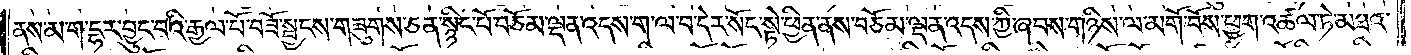ནས་མ་ག་དྷར་བྱུང་བའི་རྒྱལ་པོ་བཟོ་སྦྱངས་གཟུགས་ཅན་སྙིང་པོ་བཅོམ་ལྡན་འདས་ག་ལ་བ་དེར་སོང་སྟེ་ཕྱིན་ནས་བཅོམ་ལྡན་འདས་ཀྱི་ཞབས་གཉིས་ལ་མགོ་བོས་ཕྱག་འཚལ་ཏེ་མཐའ་
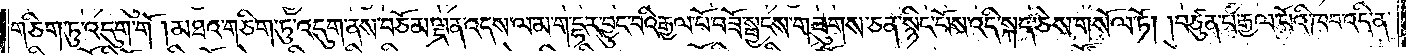གཅིག་ཏུ་འདུག་གོ །མཐའ་གཅིག་ཏུ་འདུག་ནས་བཅོམ་ལྡན་འདས་ལ་མ་ག་དྷར་བྱུང་བའི་རྒྱལ་པོ་བཟོ་སྦྱངས་གཟུགས་ཅན་སྙིང་པོས་འདི་སྐད་ཅེས་གསོལ་ཏོ། །བཙུན་པ་རྒྱལ་པོའི་ཁབ་འདི་ན་
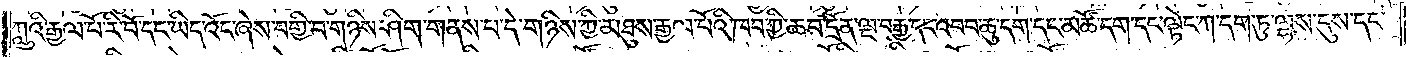ཀླུའི་རྒྱལ་པོ་རི་བོ་དང་ཡིད་འོང་ཞེས་བགྱི་བ་གཉིས་ཤིག་གནས་པ་དེ་གཉིས་ཀྱི་མཐུས་རྒྱལ་པོའི་ཁབ་ཀྱི་ཆབ་དྲོན་ལྔ་བརྒྱ་དང་འབབ་ཆུ་དག་དང་མཚོ་དག་དང་ལྟེང་ཀ་དག་ཏུ་ལྷས་དུས་དང་
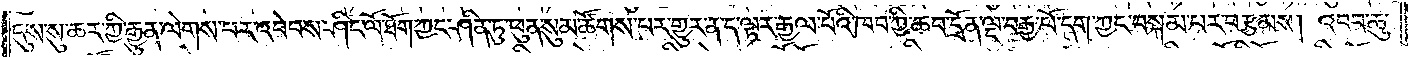དུས་སུ་ཆར་ཀྱི་རྒྱུན་ལེགས་པར་འབེབས་ཤིང་ལོ་ཐོག་ཀྱང་ཤིན་ཏུ་ཕུན་སུམ་ཚོགས་པར་གྱུར་ན་ད་ལྟར་རྒྱལ་པོའི་ཁབ་ཀྱི་ཆབ་དྲོན་ལྔ་བརྒྱ་པོ་དག་ཀྱང་བསྐམ་པར་བརྩམས། འབབ་ཆུ་
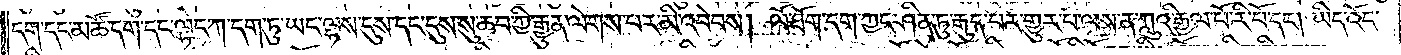དག་དང་མཚོ་དག་དང་ལྟེང་ཀ་དག་ཏུ་ཡང་ལྷས་དུས་དང་དུས་སུ་ཆབ་ཀྱི་རྒྱུན་ལེགས་པར་མི་འབེབས། ལོ་ཐོག་དག་ཀྱང་ཤིན་ཏུ་རྒུད་པར་གྱུར་པ་ལས་ན་ཀླུའི་རྒྱལ་པོ་རི་བོ་དང༌། ཡིད་འོང་
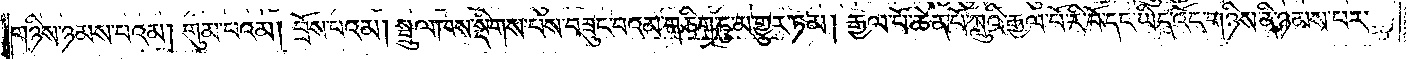གཉིས་ཉམས་པའམ། གུམ་པའམ། བྲོས་པའམ། སྦྲུལ་ཁས་སྡིགས་པས་བཟུང་བའམ་གཅིག་ཏུ་མ་གྱུར་ཏམ། རྒྱལ་པོ་ཆེན་པོ་ཀླུའི་རྒྱལ་པོ་རི་བོ་དང་ཡིད་འོང་གཉིས་ནི་ཉམས་པར་
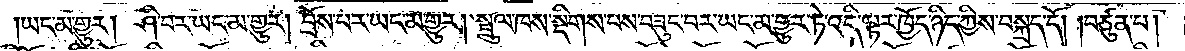ཡང་མ་གྱུར། ཤི་བར་ཡང་མ་གྱུར། བྲོས་པར་ཡང་མ་གྱུར། སྦྲུལ་ཁས་སྡིགས་པས་བཟུང་བར་ཡང་མ་གྱུར་ཏེ་འདི་ལྟར་ཁྱོད་ཉིད་ཀྱིས་བསྐྲད་དོ། །བཙུན་པ།
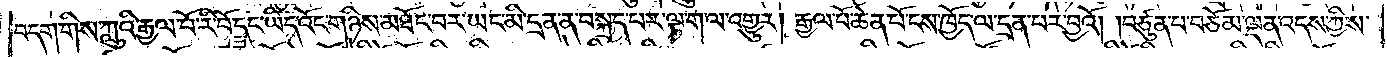བདག་གིས་ཀླུའི་རྒྱལ་པོ་རི་བོ་དང་ཡིད་འོང་གཉིས་མཐོང་བར་ཡང་མི་དྲན་ན་བསྐྲད་པར་ལྟ་ག་ལ་འགྱུར། རྒྱལ་པོ་ཆེན་པོ་ངས་ཁྱོད་ལ་དྲན་པར་བྱའོ། །བཙུན་པ་བཅོམ་ལྡན་འདས་ཀྱིས་
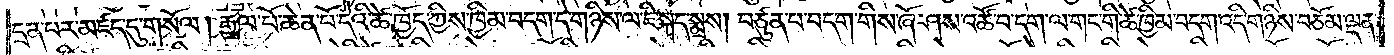དྲན་པར་མཛད་དུ་གསོལ། རྒྱལ་པོ་ཆེན་པོ་དེའི་ཚེ་ཁྱོད་ཀྱིས་ཁྱིམ་བདག་དེ་གཉིས་ལ་ཇི་སྐད་སྨྲས། བཙུན་པ་བདག་གིས་ཞོ་ཤས་འཚོ་བ་དག་ལ་གང་གི་ཚེ་ཁྱིམ་བདག་འདི་གཉིས་བཅོམ་ལྡན་
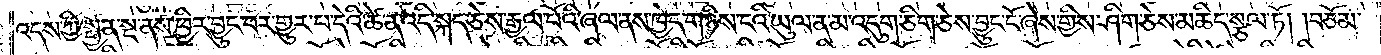འདས་ཀྱི་སྤྱན་སྔ་ནས་ཕྱིར་བྱུང་བར་གྱུར་པ་དེའི་ཚེ་ན་འདི་སྐད་ཅེས་རྒྱལ་པོའི་ཞལ་ནས་ཁྱེད་གཉིས་ངའི་ཡུལ་ན་མ་འདུག་ཅིག་ཅེས་བྱུང་ངོ་ཞེས་གྱིས་ཤིག་ཅེས་མཆིད་སྩལ་ཏོ། །བཅོམ་
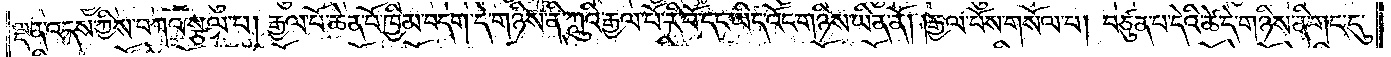ལྡན་འདས་ཀྱིས་བཀའ་སྩལ་པ། རྒྱལ་པོ་ཆེན་པོ་ཁྱིམ་བདག་དེ་གཉིས་ནི་ཀླུའི་རྒྱལ་པོ་རི་བོ་དང་ཡིད་འོང་གཉིས་ཡིན་ནོ། །རྒྱལ་པོས་གསོལ་པ། བཙུན་པ་དེའི་ཚེ་དེ་གཉིས་ནི་གང་དུ་
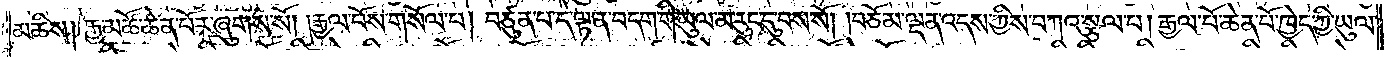མཆིས། རྒྱ་མཚོ་ཆེན་པོར་ཞུགས་སོ། །རྒྱལ་པོས་གསོལ་པ། བཙུན་པ་དེ་ལྟ་ན་བདག་གི་ཡུལ་མ་རུང་དུ་བས་སོ། །བཅོམ་ལྡན་འདས་ཀྱིས་བཀའ་སྩལ་པ། རྒྱལ་པོ་ཆེན་པོ་ཁྱེད་ཀྱི་ཡུལ་
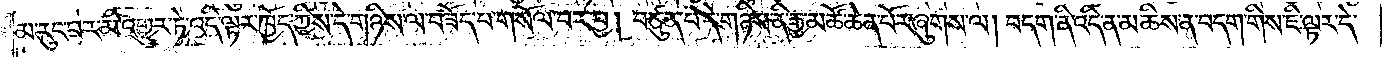མ་རུང་བར་མི་འགྱུར་ཏེ་འདི་ལྟར་ཁྱོད་ཀྱིས་དེ་གཉིས་ལ་བཟོད་པ་གསོལ་བར་བྱ། བཙུན་པ་དེ་གཉིས་ནི་རྒྱ་མཚོ་ཆེན་པོར་ཞུགས་ལ། བདག་ནི་འདི་ན་མཆིས་ན་བདག་གིས་ཇི་ལྟར་དེ་
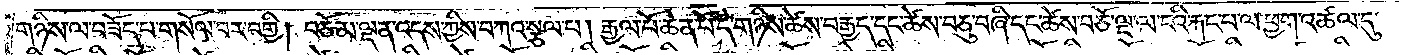གཉིས་ལ་བཟོད་པ་གསོལ་བར་བགྱི། བཅོམ་ལྡན་འདས་ཀྱིས་བཀའ་སྩལ་པ། རྒྱལ་པོ་ཆེན་པོ་དེ་གཉིས་ཚེས་བརྒྱད་དང་ཚེས་བཅུ་བཞི་དང་ཚེས་བཅོ་ལྔ་ལ་ངའི་རྐང་པ་ལ་ཕྱག་འཚལ་དུ་
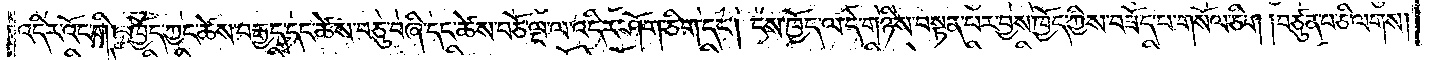འདིར་འོང་གི །ཁྱོད་ཀྱང་ཚེས་བརྒྱད་དང་ཚེས་བཅུ་བཞི་དང་ཚེས་བཅོ་ལྔ་ལ་འདིར་ཤོག་ཅིག་དང༌། ངས་ཁྱོད་ལ་དེ་གཉིས་བསྟན་པར་བྱས་ཁྱོད་ཀྱིས་བཟོད་པ་གསོལ་ཅིག །བཙུན་པ་ཅི་ལགས།
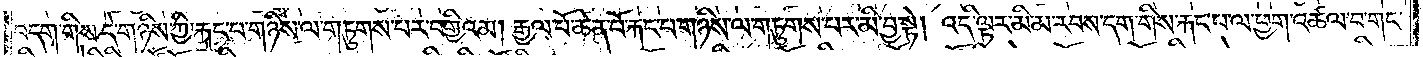བདག་གིས་དེ་གཉིས་ཀྱི་རྐང་པ་གཉིས་ལ་གཏུགས་པར་བགྱིའམ། རྒྱལ་པོ་ཆེན་པོ་རྐང་པ་གཉིས་ལ་གཏུགས་པར་མི་བྱ་སྟེ། འདི་ལྟར་མི་མ་རབས་དག་གིས་རྐང་པ་ལ་ཕྱག་འཚལ་བ་གང་
